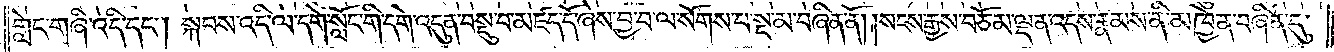གླེང་གཞི་འདི་དང༌། སྐབས་འདི་ལ་དགེ་སློང་གི་དགེ་འདུན་བསྡུ་བ་མཛད་དོ་ཞེས་བྱ་བ་ལ་སོགས་པ་སྔ་མ་བཞིན་ནོ། །སངས་རྒྱས་བཅོམ་ལྡན་འདས་རྣམས་ནི་མཁྱེན་བཞིན་དུ་
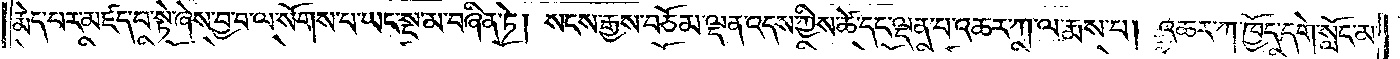རྨེད་པར་མཛད་པ་སྟེ་ཞེས་བྱ་བ་ལ་སོགས་པ་ཡང་སྔ་མ་བཞིན་ཏེ། སངས་རྒྱས་བཅོམ་ལྡན་འདས་ཀྱིས་ཚེ་དང་ལྡན་པ་འཆར་ཀ་ལ་རྨས་པ། འཆར་ཀ་ཁྱོད་དགེ་སློང་མ་
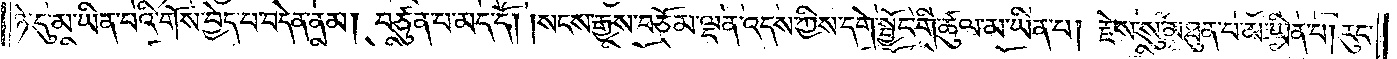ཉེ་དུ་མ་ཡིན་པའི་གོས་བྱེད་པ་བདེན་ནམ། བཙུན་པ་མད་དོ། །སངས་རྒྱས་བཅོམ་ལྡན་འདས་ཀྱིས་དགེ་སྦྱོང་གི་ཚུལ་མ་ཡིན་པ། རྗེས་སུ་མཐུན་པ་མ་ཡིན་པ། རུང་
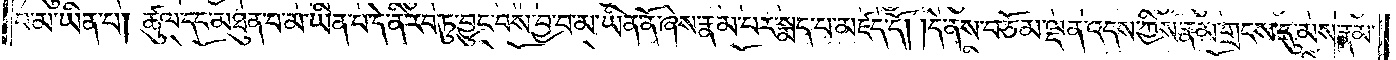བ་མ་ཡིན་པ། ཚུལ་དང་མཐུན་པ་མ་ཡིན་པ་དེ་ནི་རབ་ཏུ་བྱུང་བས་བྱ་བ་མ་ཡིན་ནོ་ཞེས་རྣམ་པར་སྨད་པ་མཛད་དོ། །དེ་ནས་བཅོམ་ལྡན་འདས་ཀྱིས་རྣམ་གྲངས་དུ་མས་རྣམ་
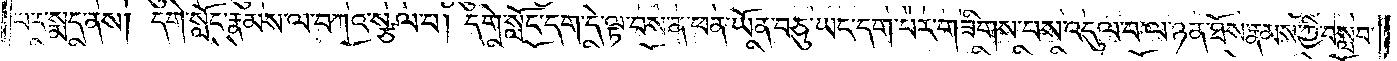པར་སྨད་ནས། དགེ་སློང་རྣམས་ལ་བཀའ་སྩལ་པ། དགེ་སློང་དག་དེ་ལྟ་བས་ན་ཕན་ཡོན་བཅུ་ཡང་དག་པར་གཟིགས་པས་འདུལ་བ་ལ་ཉན་ཐོས་རྣམས་ཀྱི་བསླབ་
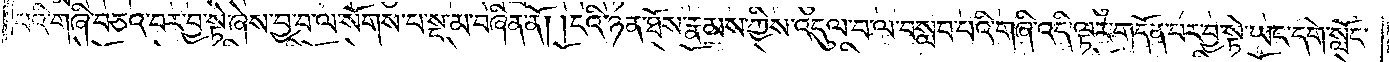པའི་གཞི་བཅའ་བར་བྱ་སྟེ་ཞེས་བྱ་བ་ལ་སོགས་པ་སྔ་མ་བཞིན་ནོ། །ངའི་ཉན་ཐོས་རྣམས་ཀྱིས་འདུལ་བ་ལ་བསླབ་པའི་གཞི་འདི་ལྟར་གདོན་པར་བྱ་སྟེ་ཡང་དགེ་སློང་
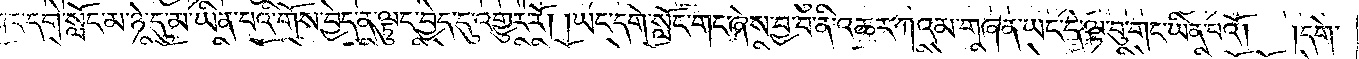གང་དགེ་སློང་མ་ཉེ་དུ་མ་ཡིན་པའི་གོས་བྱེད་ན་ལྟུང་བྱེད་དུ་འགྱུར་རོ། །ཡང་དགེ་སློང་གང་ཞེས་བྱ་བ་ནི་འཆར་ཀའམ་གཞན་ཡང་དེ་ལྟ་བུ་གང་ཡིན་པའོ། །དགེ་
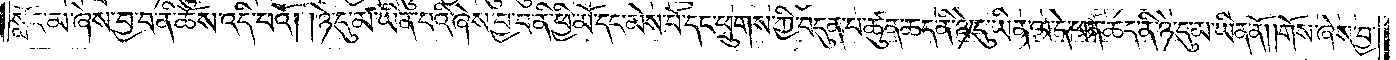སློང་མ་ཞེས་བྱ་བ་ནི་ཆོས་འདི་པའོ། །ཉེ་དུ་མ་ཡིན་པའི་ཞེས་བྱ་བ་ནི་ཕྱི་མོ་དང་མེས་པོ་དང་ཕྲུགས་ཀྱི་བདུན་པ་ཚུན་ཆད་ནི་ཉེ་དུ་ཡིན་ལ་དེ་ཕན་ཆད་ནི་ཉེ་དུ་མ་ཡིན་ནོ། །གོས་ཞེས་བྱ་
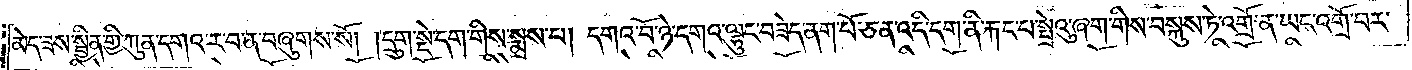མེད་ཟས་སྦྱིན་གྱི་ཀུན་དགའ་ར་བ་ན་བཞུགས་སོ། །དྲུག་སྡེ་དག་གིས་སྨྲས་པ། དགའ་བོ་ཉེ་དགའ་ལྷུང་བཟེད་ནག་པོ་ཅན་འདི་དག་ནི་རྐང་བ་སྤྲེའུ་ཞག་གིས་བསྐུས་ཏེ་འགྲོ་ན་ཡང་འགྲོ་བར་
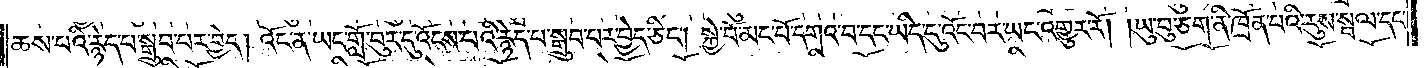ཆས་པའི་རྙེད་པ་སྒྲུབ་པར་བྱེད། འོང་ན་ཡང་གློ་བུར་དུ་འོངས་པའི་རྙེད་པ་སྒྲུབ་པར་བྱེད་ཅིང༌། སྐྱེ་བོ་མང་པོ་དགའ་བ་དང་ཡིད་དུ་འོང་བར་ཡང་འགྱུར་རོ། །ཡུ་བུ་ཅག་ནི་ཁྲོན་པའི་རུས་སྦལ་དང་
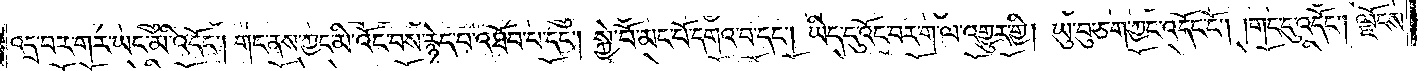འདྲ་བར་གར་ཡང་མི་འདོང༌། གང་ནས་ཀྱང་མི་འོང་བས་རྙེད་པ་འཐོབ་པ་དང༌། སྐྱེ་བོ་མང་པོ་དགའ་བ་དང༌། ཡིད་དུ་འོང་བར་ག་ལ་འགྱུར་གྱི། ཡུ་བུ་ཅག་ཀྱང་འདོང་ངོ༌། །གང་དུ་འདོང༌། ལྗོངས་
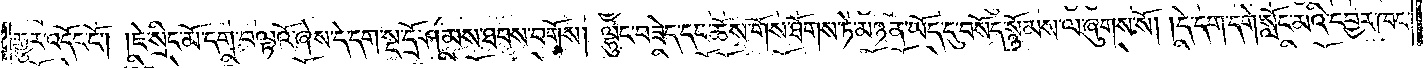རྒྱུར་འདོང་ངོ༌། །ཇེ་སྲིང་མོ་དག་བལྟའོ་ཞེས་དེ་དག་སྔ་དྲོ་ཤམས་ཐབས་བགོས། ལྷུང་བཟེད་དང་ཆོས་གོས་ཐོགས་ཏེ་མཉན་ཡོད་དུ་བསོད་སྙོམས་ལ་ཞུགས་སོ། །དེ་དག་དགེ་སློང་མའི་དབྱར་ཁང་
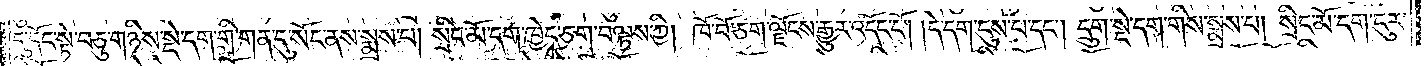དུ་དོང་སྟེ་བཅུ་གཉིས་སྡེ་དག་གི་གན་དུ་སོང་ནས་སྨྲས་པ། སྲིང་མོ་དག་ཁྱེད་ཅག་བལྟས་ཀྱི། ཁོ་བོ་ཅག་ལྗོངས་རྒྱུར་འདོང་ངོ༌། །དེ་དག་ངུས་པ་དང༌། དྲུག་སྡེ་དག་གིས་སྨྲས་པ། སྲིང་མོ་དག་ངུར་
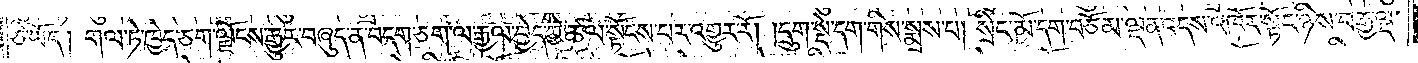ཅི་ཡོད། གལ་ཏེ་ཁྱེད་ཅག་ལྗོངས་རྒྱུར་བཞུད་ན་བདག་ཅག་ལ་རྒྱལ་བྱེད་ཀྱི་ཚལ་སྟོངས་པར་འགྱུར་རོ། །དྲུག་སྡེ་དག་གིས་སྨྲས་པ། སྲིང་མོ་དག་བཅོམ་ལྡན་འདས་འཁོར་སྟོང་ཉིས་བརྒྱ་ལྔ་
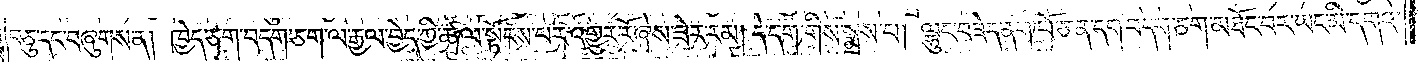བཅུ་དང་བཞུགས་ན། ཁྱེད་ཅག་བདག་ཅག་ལ་རྒྱལ་བྱེད་ཀྱི་ཚལ་སྟོངས་པར་འགྱུར་རོ་ཞེས་ཟེར་རམ། དེ་དག་གིས་སྨྲས་པ། ལྷུང་བཟེད་ནག་པོ་ཅན་དག་བདག་ཅག་མཐོང་བར་ཡང་མི་དགའ་
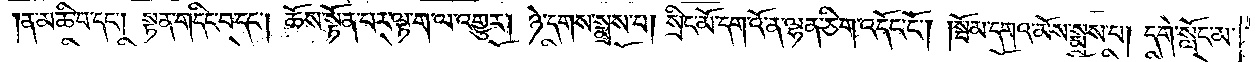ན་མཆི་བ་དང༌། སྟན་གདིང་བ་དང༌། ཆོས་སྟོན་པར་ལྟ་ག་ལ་འགྱུར། ཉེ་དགས་སྨྲས་པ། སྲིང་མོ་དག་འོ་ན་ལྷན་ཅིག་འདོང་ངོ༌། །སྦོམ་དགའ་མོས་སྨྲས་པ། དགེ་སློང་མ་
